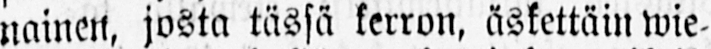nainen, josta tässä kerron, äskettäin wie-
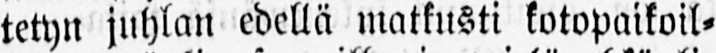tetyn juhlan edellä matkusti kotopaikoil-
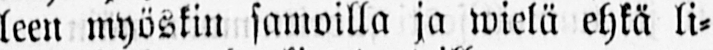leen myöskin samoilla ja wielä ehkä li-
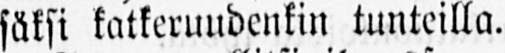säksi katkeruudenkin tunteilla.
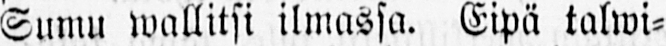Sumu wallitsi ilmassa. Eipä talwi-
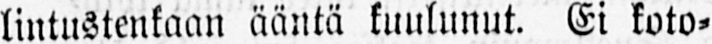lintustenkaan ääntä kuulunut. Ei koto-
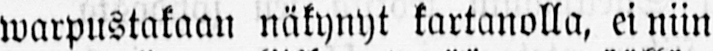warpustakaan näkynyt kartanolla, ei niin
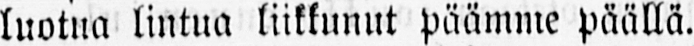luotua lintua liikkunut päämme päällä.
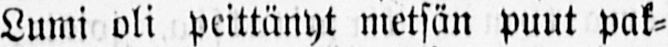Lumi oli peittänyt metsän puut pak-
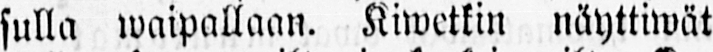sulla waipallaan. Kiwetkin näyttiwät
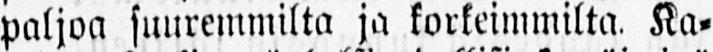paljoa suuremmilta ja korkeimmilta. Ka-
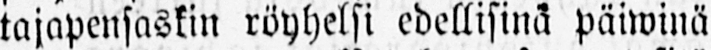tajapensaskin röyhelsi edellisinä päiwinä
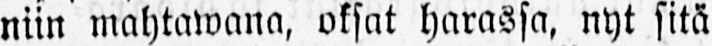niin mahtawana, oksat harassa, nyt sitä
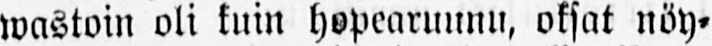wastoin oli kuin hopearuunu, oksat nöy-
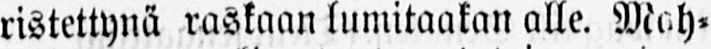ristettynä raskaan lumitaakan alle. Mah-
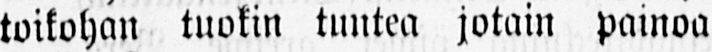toikohan tuokin tuntea jotain painoa
